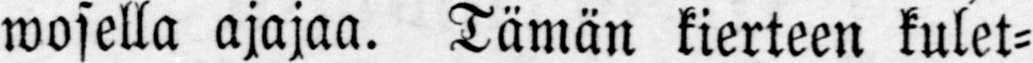wosella ajajaa. Tämän kierteen kulet-
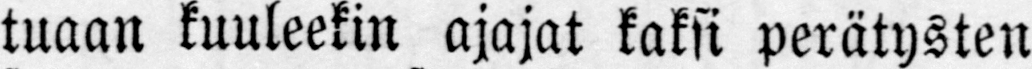tuaan kuuleekin ajajat kaksi perätysten
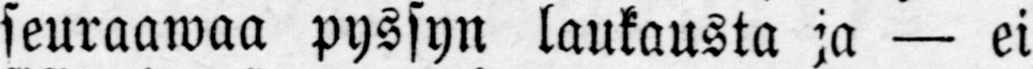seuraawaa pyssyn laukausta ja — ei
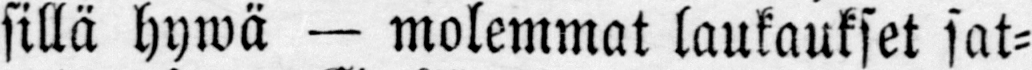sillä hywä — molemmat laukaukset sat-
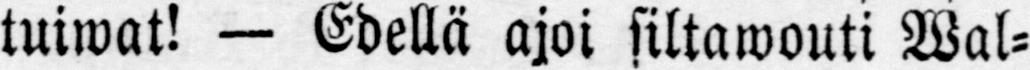tuiwat! — Edellä ajoi siltawouti Wal-
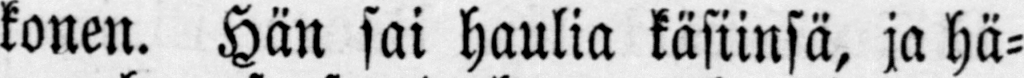konen. Hän sai haulia käsiinsä, ja hä-
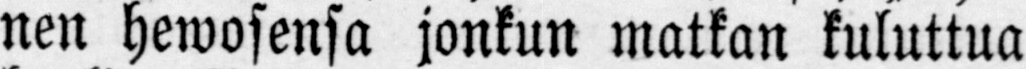nen hewosensa jonkun matkan kuluttua
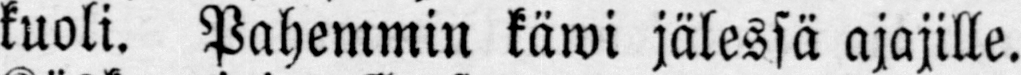kuoli. Pahemmin käwi jälessä ajajille.
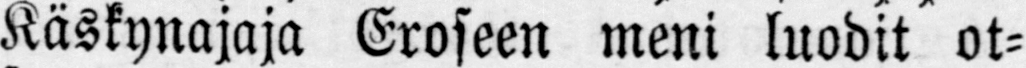Käskynajaja Eroseen meni luodit ot-
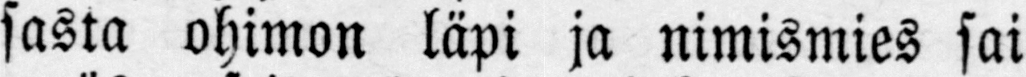sasta ohimon läpi ja nimismies sai
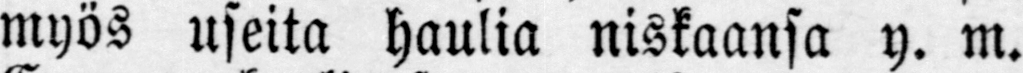myös useita haulia niskaansa y. m.
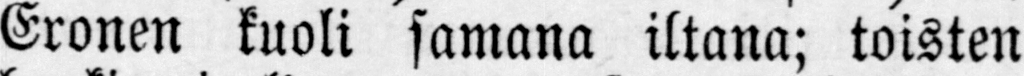Eronen kuoli samana iltana; toisten
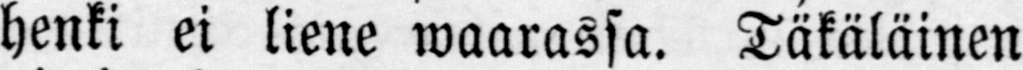henki ei liene waarassa. Täkäläinen
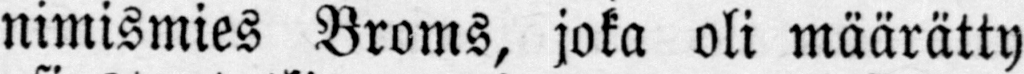nimismies Broms, joka oli määrätty
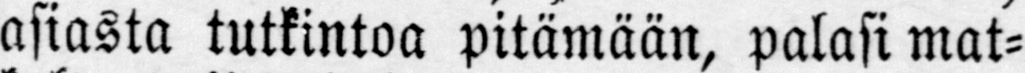asiasta tutkintoa pitämään, palasi mat-
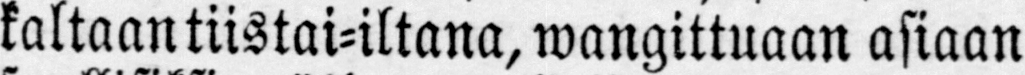kaltaan tiistai-iltana, wangittuaan asiaan
